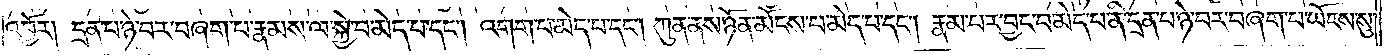འབྱོར། དྲན་པ་ཉེ་བར་བཞག་པ་རྣམས་ལ་སྐྱེ་བ་མེད་པ་དང༌། འགག་པ་མེད་པ་དང༌། ཀུན་ནས་ཉོན་མོངས་པ་མེད་པ་དང༌། རྣམ་པར་བྱང་བ་མེད་པ་ནི་དྲན་པ་ཉེ་བར་བཞག་པ་ཡོངས་སུ་
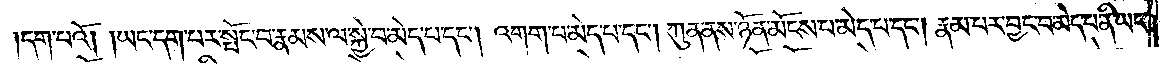དག་པའོ། །ཡང་དག་པར་སྤོང་བ་རྣམས་ལ་སྐྱེ་བ་མེད་པ་དང༌། འགག་པ་མེད་པ་དང༌། ཀུན་ནས་ཉོན་མོངས་པ་མེད་པ་དང༌། རྣམ་པར་བྱང་བ་མེད་པ་ནི་ཡང་
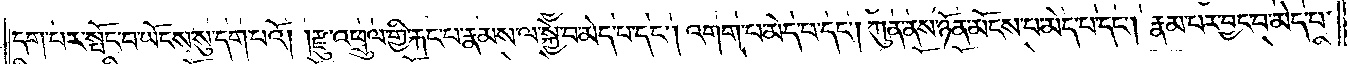དག་པར་སྤོང་བ་ཡོངས་སུ་དག་པའོ། །རྫུ་འཕྲུལ་གྱི་རྐང་པ་རྣམས་ལ་སྐྱེ་བ་མེད་པ་དང༌། འགག་པ་མེད་པ་དང༌། ཀུན་ནས་ཉོན་མོངས་པ་མེད་པ་དང༌། རྣམ་པར་བྱང་བ་མེད་པ་
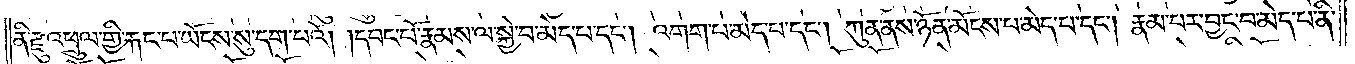ནི་རྫུ་འཕྲུལ་གྱི་རྐང་པ་ཡོངས་སུ་དག་པའོ། །དབང་པོ་རྣམས་ལ་སྐྱེ་བ་མེད་པ་དང༌། འགག་པ་མེད་པ་དང༌། ཀུན་ནས་ཉོན་མོངས་པ་མེད་པ་དང༌། རྣམ་པར་བྱང་བ་མེད་པ་ནི་
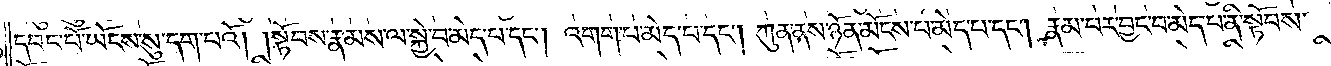དབང་པོ་ཡོངས་སུ་དག་པའོ། །སྟོབས་རྣམས་ལ་སྐྱེ་བ་མེད་པ་དང༌། འགག་པ་མེད་པ་དང༌། ཀུན་ནས་ཉོན་མོངས་པ་མེད་པ་དང༌། རྣམ་པར་བྱང་བ་མེད་པ་ནི་སྟོབས་
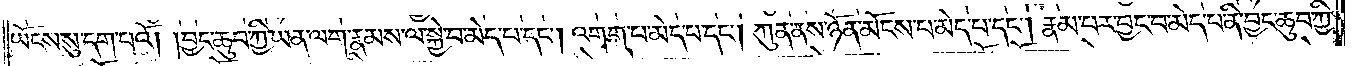ཡོངས་སུ་དག་པའོ། །བྱང་ཆུབ་ཀྱི་ཡན་ལག་རྣམས་ལ་སྐྱེ་བ་མེད་པ་དང༌། འགག་པ་མེད་པ་དང༌། ཀུན་ནས་ཉོན་མོངས་པ་མེད་པ་དང༌། རྣམ་པར་བྱང་བ་མེད་པ་ནི་བྱང་ཆུབ་ཀྱི་
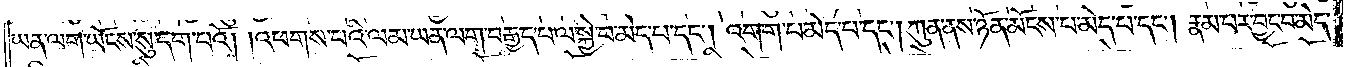ཡན་ལག་ཡོངས་སུ་དག་པའོ། །འཕགས་པའི་ལམ་ཡན་ལག་བརྒྱད་པ་ལ་སྐྱེ་བ་མེད་པ་དང༌། འགག་པ་མེད་པ་དང༌། ཀུན་ནས་ཉོན་མོངས་པ་མེད་པ་དང༌། རྣམ་པར་བྱང་བ་མེད་
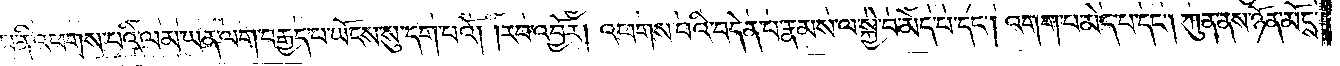པ་ནི་འཕགས་པའི་ལམ་ཡན་ལག་བརྒྱད་པ་ཡོངས་སུ་དག་པའོ། །རབ་འབྱོར། འཕགས་པའི་བདེན་པ་རྣམས་ལ་སྐྱེ་བ་མེད་པ་དང༌། འགག་པ་མེད་པ་དང༌། ཀུན་ནས་ཉོན་མོངས་
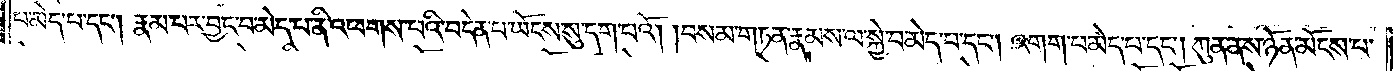པ་མེད་པ་དང༌། རྣམ་པར་བྱང་བ་མེད་པ་ནི་འཕགས་པའི་བདེན་པ་ཡོངས་སུ་དག་པའོ། །བསམ་གཏན་རྣམས་ལ་སྐྱེ་བ་མེད་པ་དང༌། འགག་པ་མེད་པ་དང༌། ཀུན་ནས་ཉོན་མོངས་པ་
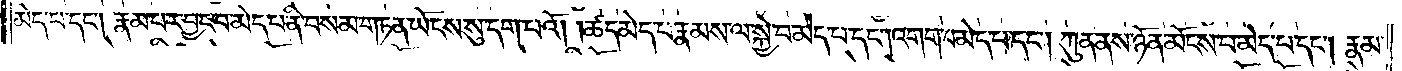མེད་པ་དང༌། རྣམ་པར་བྱང་བ་མེད་པ་ནི་བསམ་གཏན་ཡོངས་སུ་དག་པའོ། །ཚད་མེད་པ་རྣམས་ལ་སྐྱེ་བ་མེད་པ་དང༌། འགག་པ་མེད་པ་དང༌། ཀུན་ནས་ཉོན་མོངས་པ་མེད་པ་དང༌། རྣམ་
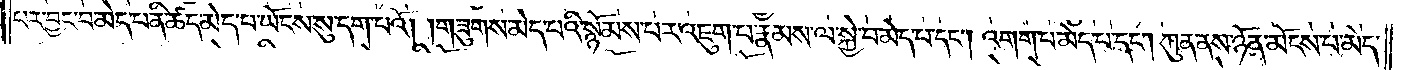པར་བྱང་བ་མེད་པ་ནི་ཚད་མེད་པ་ཡོངས་སུ་དག་པའོ། །གཟུགས་མེད་པའི་སྙོམས་པར་འཇུག་པ་རྣམས་ལ་སྐྱེ་བ་མེད་པ་དང༌། འགག་པ་མེད་པ་དང༌། ཀུན་ནས་ཉོན་མོངས་པ་མེད་
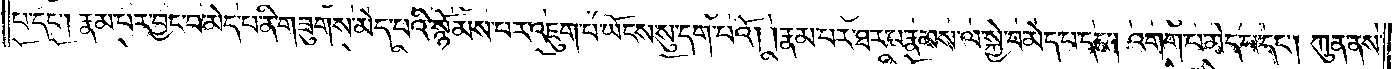པ་དང༌། རྣམ་པར་བྱང་བ་མེད་པ་ནི་གཟུགས་མེད་པའི་སྙོམས་པར་འཇུག་པ་ཡོངས་སུ་དག་པའོ། །རྣམ་པར་ཐར་པ་རྣམས་ལ་སྐྱེ་བ་མེད་པ་དང༌། འགག་པ་མེད་པ་དང༌། ཀུན་ནས་
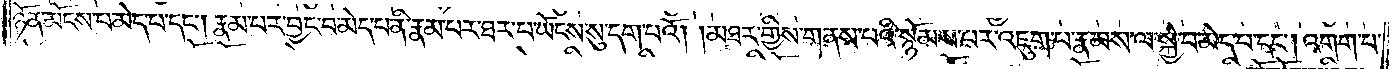ཉོན་མོངས་པ་མེད་པ་དང༌། རྣམ་པར་བྱང་བ་མེད་པ་ནི་རྣམ་པར་ཐར་པ་ཡོངས་སུ་དག་པའོ། །མཐར་གྱིས་གནས་པའི་སྙོམས་པར་འཇུག་པ་རྣམས་ལ་སྐྱེ་བ་མེད་པ་དང༌། འགག་པ་
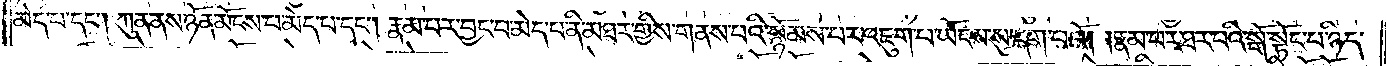མེད་པ་དང༌། ཀུན་ནས་ཉོན་མོངས་པ་མེད་པ་དང༌། རྣམ་པར་བྱང་བ་མེད་པ་ནི་མཐར་གྱིས་གནས་པའི་སྙོམས་པར་འཇུག་པ་ཡོངས་སུ་དག་པའོ། །རྣམ་པར་ཐར་པའི་སྒོ་སྟོང་པ་ཉིད་
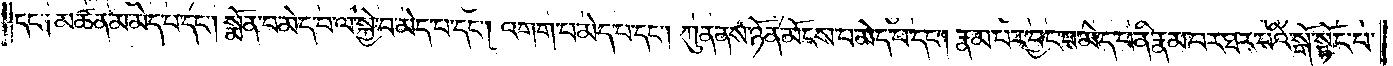དང་༑ མཚན་མ་མེད་པ་དང༌། སྨོན་པ་མེད་པ་ལ་སྐྱེ་བ་མེད་པ་དང༌། འགག་པ་མེད་པ་དང༌། ཀུན་ནས་ཉོན་མོངས་པ་མེད་པ་དང༌། རྣམ་པར་བྱང་བ་མེད་པ་ནི་རྣམ་པར་ཐར་པའི་སྒོ་སྟོང་པ་
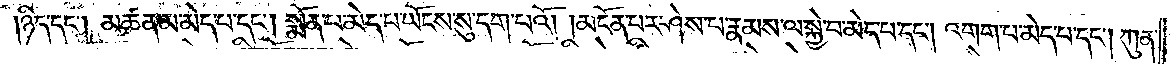ཉིད་དང༌། མཚན་མ་མེད་པ་དང༌། སྨོན་པ་མེད་པ་ཡོངས་སུ་དག་པའོ། །མངོན་པར་ཤེས་པ་རྣམས་ལ་སྐྱེ་བ་མེད་པ་དང༌། འགག་པ་མེད་པ་དང༌། ཀུན་
